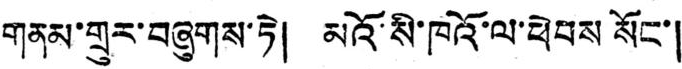གནམ་གྲུར་བཞུགས་ཏེ། མའོ་སི་ཁའོ་ལ་ཕེབས སོང་།
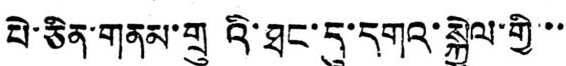པེ་ཅིན་གནམ་གྲུའི་ཐང་དུ་དགའ་སྐྱེལ་གྱི་་་
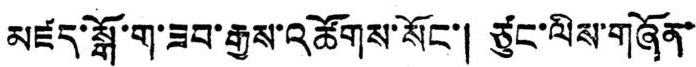མཛད་སྒོ་ག་ཟབ་རྒྱས་འཚོགས་སོང་། ཙུང་ལིས་གཞོན་
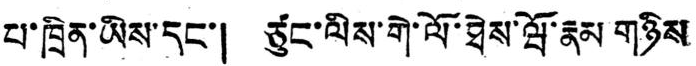པ་ཁྲིན་ཡིས་དང་། ཙུང་ལིས་གེ་ལོ་ཐེས་ཝོ་རྣམ་གཉིས
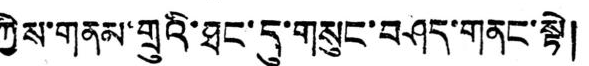ཀྱིས་གནམ་གྲུའི་ཐང་དུ་གསུང་བཤད་གནང་སྟེ།
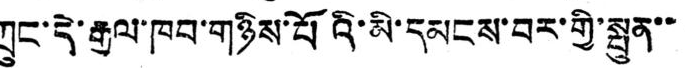ཀྲུང་དེ་རྒྱལ་ཁབ་གཉིས་པོའི་མི་དམངས་བར་གྱི་སྤུན་་
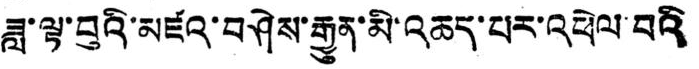ཟླ་ལྟ་བུའི་མཛའ་བཤེས་རྒྱུན་མི་འཆད་པར་འཕེལ་བའི
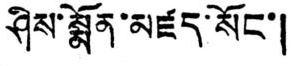ཤིས་སྨོན་མཛད་སོང་།
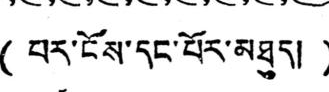( པར་ངོས་དང་པོར་མཐུད། )
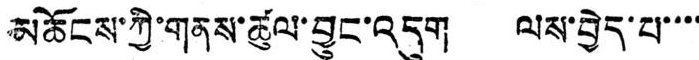མཆོངས་ཀྱི་གནས་ཚུལ་བྱུང་འདུག ལས་བྱེད་པ་་་་
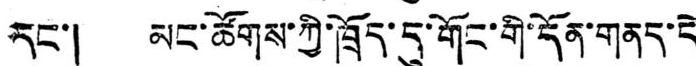དང་། མང་ཚོགས་ཀྱི་ཁྲོད་དུ་གོང་གི་དོན་གནད་དེ
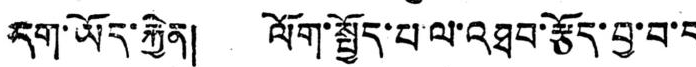དག་ཡོད་རྐྱེན། ལོག་སྤྱོད་པ་ལ་འཐབ་རྩོད་བྱ་བ་ད
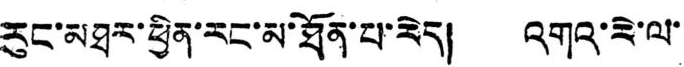རུང་མཐར་ཕྱིན་རང་མ་ཐོན་པ་རེད། འགའ་རེ་ལ་་
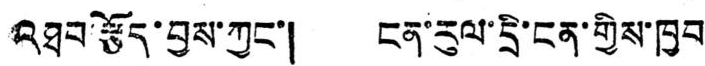འཐབ་རྩོད་བྱས་ཀྱང་། ངན་རུལ་དྲི་ངན་གྱིས་ཁྱབ
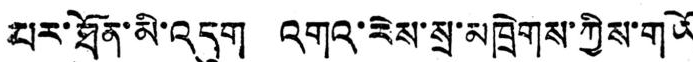པར་ཐོན་མི་འདུག འགའ་རེས་སྲ་མཁྲེགས་ཀྱིས་གཡོ
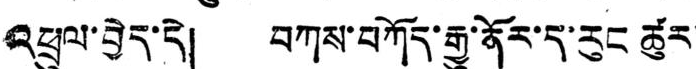འཕྲུལ་བྱེད་དེ། བཀས་བཀོད་རྒྱུ་ནོར་ད་རུང ཚུར་
